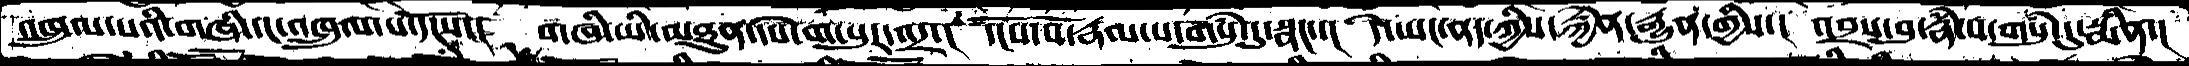འཁྲུལ་པའི་གཞི་དང་འཁྲུལ་པ་དངོས་།  གཞི་ཡི་མཐུན་དཔེ་ག་པུར་འདྲ་།  དངོས་པོ་རྣམ་པ་གསུཾ་དུ་སྣང་།  དེ་ཡང་ནད་ཀྱིས་རྐྱེན་རྒྱུན་གྱིས་།  འབྲས་བུ་རྣཾ་པ་གསུཾ་དུ་སྨིན་།
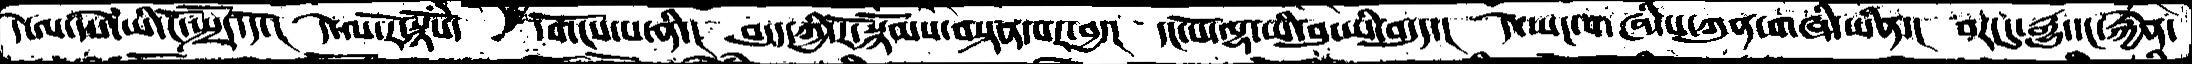དེ་ལ་དཔེ་ཡི་ངོ་སྤྲོད་དོ་།  དེ་ལ་རོ་སྙོཾས་  དགོངས་པ་ནི་།  བདུད་ཀྱི་རོ་སྙོམས་བསྟན་པར་བྱ་།  དང་པོ་ལྷ་ཡི་བུ་ཡི་བདུད་།  དེ་ཡང་གཞི་ས་ཀུན་གཞི་ཡིན་།  བར་དུ་རྒྱུ་དང་རྐྱེན་
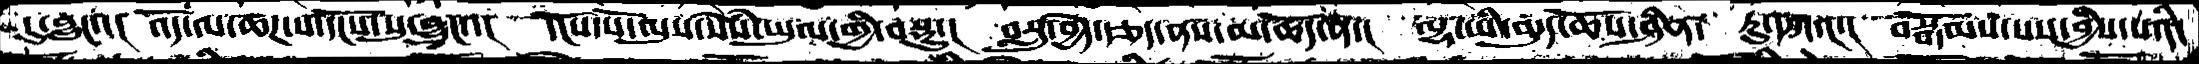དུ་བླང་་།  འོད་ལ་ཆཌ་པ་དངོས་སུ་བྱུང་་།  དངོས་པོ་ལུས་སེཾས་ཡུལ་གྱི་བསྡུ་།  བསླུ་བྱེད་རྩད་ནས་མ་ཆོད་ན་།  ལྷ་ཡི་བདུད་ཆོས་ཤིན་ ཏུ་དཀའ་།   བསྒོམས་པས་བྱིས་པའི་
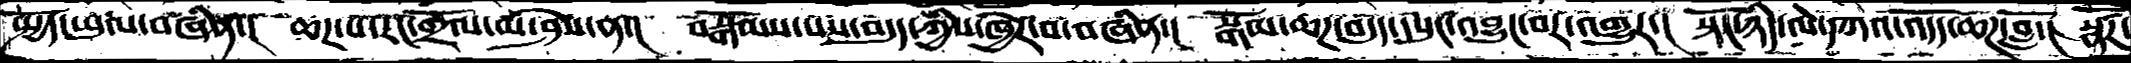སྤྱོད་ཡུལ་བཞིན་།  ཆཌ་པ་རང་གྲོལ་མ་ཤེས་ན་།  བསྒོམས་པས་བདུད་ཀྱིས་ཁྱེར་བ་བཞིན་།  སྒོམ་ཆཌ་བདུད་དཔུང་འབྱུང་བར་འགྱུར་།  སྟོང་ཉིད་ལེ་དཀའ་འདོད་ཆཌ་བློ་།  སྣཚོཌ་
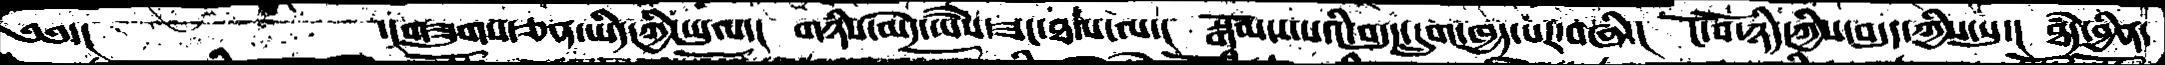༄༅་།           ་།གཟུགས་ཅན་ཡིད་ཀྱི་ཡུལ་།  གཉིས་མེད་ཡཻས་ཟང་ཐལ་ལ་།  སྒོམས་པའི་བདུད་དྲུག་ཁྱད་པར་བཞི་།  ངོ་བོ་ཉིད་ཀྱིས་བདུད་ཀྱིས་སུ་།  ཐཾད་བྱིན་
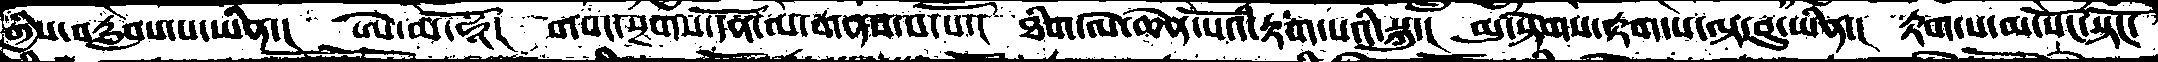གྱིས་བརླབས་པ་ཡིན་།    ཨེ་མ་ཧཱོ།  གསང་སྔགས་དོན་ལ་གནས་པ་པོ་།   ཐིག་ལེ་ཆེན་པོའི་རྟག་པའི་སྐུ་།  མུ་སྟེགས་རྟག་པ་ལྟ་བུ་ཡིན་།  རྟག་པ་མ་སོང་སྟོང་
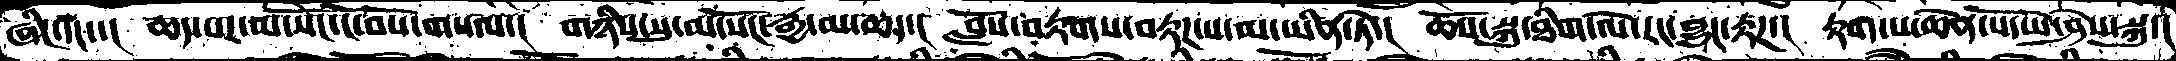ཞིང་དང་་།  ཆད་པར་མ་སོང་ངོ་བོས་གསལ་།  གཉིས་སུ་མ་སོང་རྒྱ་མ་ཆད་།  བློས་བརྟགས་བརྟཌ་པ་མ་ཡིན་ཏེ་།  ཆོས་སྐུ་ཐིག་ལེ་རང་བྱུང་རྟཌ་།  རྟག་པ་ཆེན་པོ་ཡེ་ཤེས་སྐུ་།
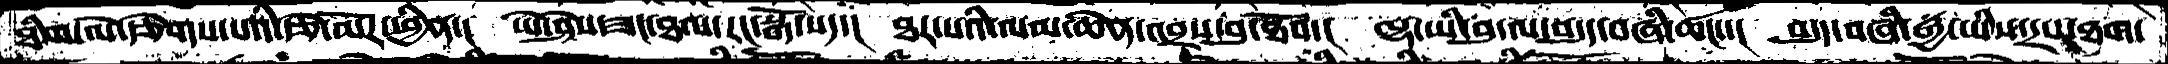ཐིག་ལེ་རྩེགས་པའི་རྩེ་མོར་ཕྱིན་།  ཡེ་ཤེས་ཟང་ཐལ་རང་སྒོ་སད་།  ཐར་པའི་ལམ་ཆེན་འབྲས་བུ་ཐོབ་།  ལྷ་ཡི་བུ་ལ་བདུད་བཞི་ཚང་་།  བདུད་བཞི་རྒྱ་ཡིས་དྲས་ཐག་
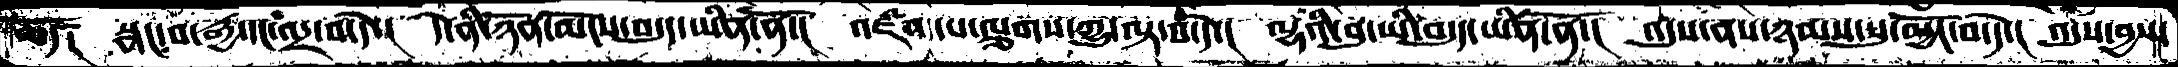ཆོད།  སྣང་བ་རྒྱ་དང་འདྲ་བ་དེ་།  དེ་ནི་ཉོན་མོངས་བདུད་ཡིན་ནོ་།  འཛིན་པ་ལྕགས་ཀྱུ་ལྟ་བ་དེ་།  ལྷའི་བུ་ཡི་བདུད་ཡིན་ནོ་།  འདུས་ནས་ཉམས་སུ་མྱོང་བ་དེ་།  འདུས་བྱས་
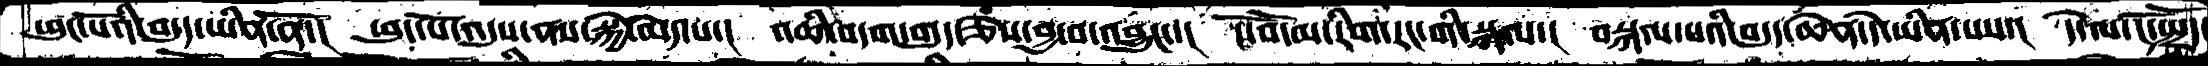ཕུང་པོའི་བདུད་ཡིན་ནོ་།  ཕུང་པོ་འདུས་ནས་སྐྱེ་མེད་པ་།  འཆི་བདག་བདུད་ཅེས་བྱ་བ་བྱུང་།  ངོ་བོ་མ་རིག་རང་གི་སྐལ་།  བསྐལ་པའི་བདུད་ཆེན་དེ་ཡིན་པས་།  དེ་ལ་ངོ་སྤྲོད་
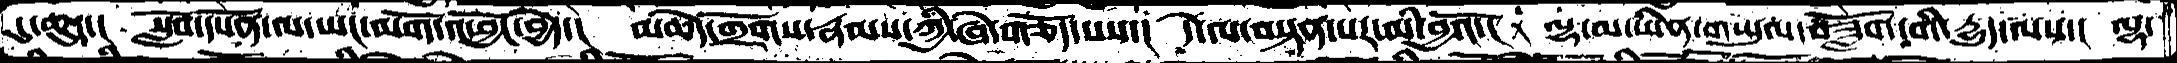དུ་ཆུང་།  སློབ་དཔོན་ལ་ཡང་མགོ་འཕྱོང་བྱེད་།  མཆེད་གྲོགས་རྣམས་ཀྱི་ཞེ་གཅོད་པས་།  དེ་ལ་བསྟན་པར་མི་བྱའོ་།  ལྷ་མ་ཡིན་གཡུལ་བཟློག་གི་དྱུད་ལས་།  ལྷ་
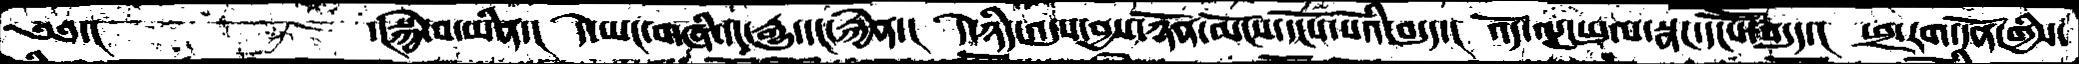༄༅་།      ་།སྐྱེ་བ་ཡིན་།  དེ་ཡང་གཞི་དང་རྒྱུ་དང་རྐྱེན་།  དེ་ཉིད་འདུས་བྱས་ཉོན་མོངས་དངོས་པོའི་བདུད་།  འདོ་ལྔ་ཕུལ་སྣང་དངཽཔ་བདུད་།  ཕྲ་རག་དོན་གྱིས་
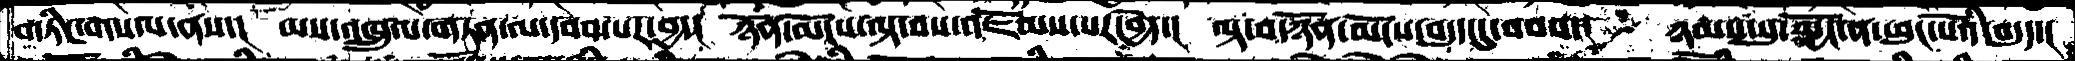གཏིང་གསལ་ནས་།  མས་འཁྲུལ་གཏན་ལ་དབབ་པར་བྱ་།  ཉོན་མོངས་ལྟ་བས་འཇོམས་པར་བྱེད་།  ལྟ་བ་ཉོན་མོངས་བདུད་དུ་བབས་།  ཉམས་སུ་མྱོང་ན་ཕུང་པོའི་བདུད་།
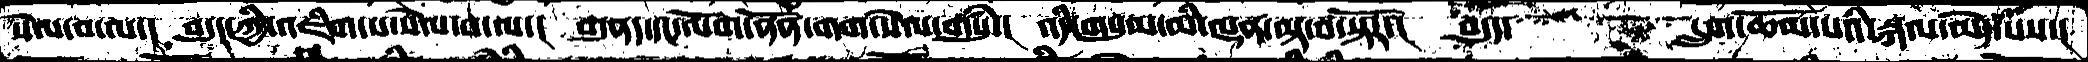སེལ་བ་ལ་།  བདུད་ཀྱི་འཇིག་པ་སེལ་བ་ལ་།  བདུནད་དང་ལོག་ནོན་གག་སེལ་གསུཾ་།  འདི་གསུམ་མི་ལྡན་ལྟ་བ་སྟོར་།  བདུད་དྲུག་ཆོམ་པའི་སྐལ་མེད་པས་
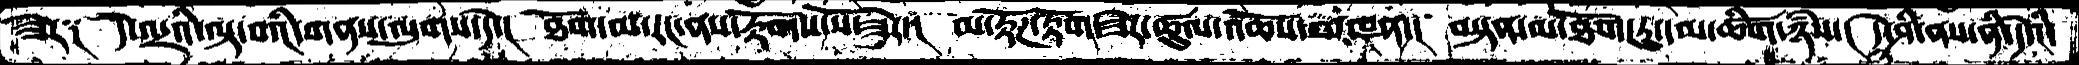ཟེར༑   དེ་འདྲའི་ལྟ་བའི་གནས་ལུགས་དེ་།  ཐོག་མ་རང་ནས་རྟོགས་སོ་ཟེར་།  མ་རྟོཌ་རྟོག་ཟེར་ཚུལ་འཆོས་མཁན་།  བསྟན་མ་ཐོག་ཏུ་དམ་ཚིག་ཉཾས་།  དེར་ཤི་ནས་ནི་དེའི་
